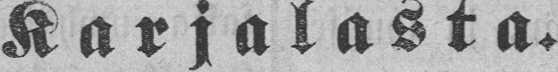Karjalasta.
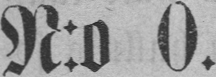N:o 0.
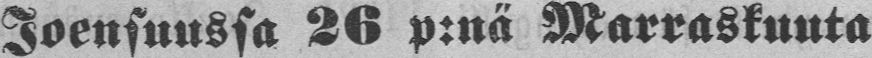Joensuussa 26 p:nä Marraskuuta
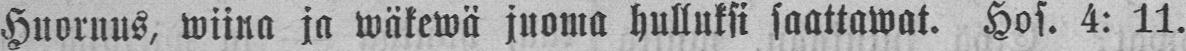Huoruus, wiina ja wäkewä juoma hulluksi saattawat. Hos. 4: 11.
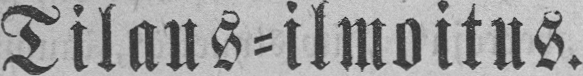Tilaus-ilmoitus.
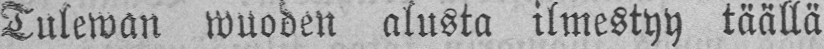Tulewan wuoden alusta ilmestyy täällä
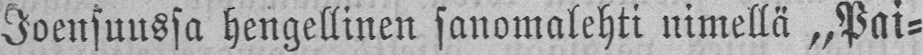Joensuussa hengellinen sanomalehti nimellä „Pai-
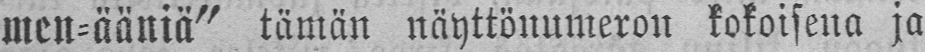men-ääniä" tämän näyttönumeron kokoisena ja
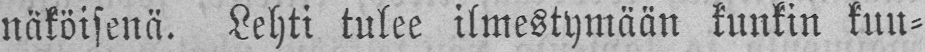näköisenä. Lehti tulee ilmestymään kunkin kuu-
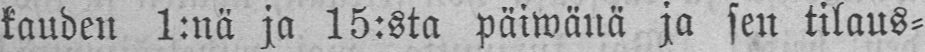kauden 1:nä ja 15:sta päiwänä ja sen tilaus-
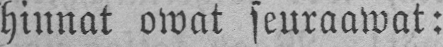hinnat owat seuraawat:
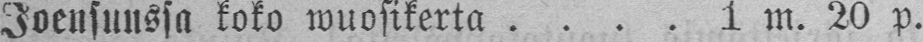Joensuussa koko wuosikerta . . . . 1 m. 20 p.
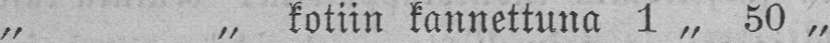„ „ kotiin kannettuna 1 „ 50 „
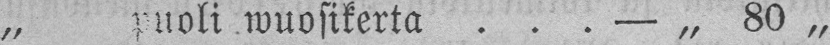„ puoli wuosikerta . . . — „ 80 „
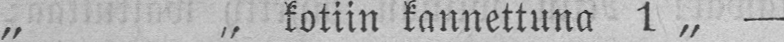„ „ kotiin kannettuna 1 „ —
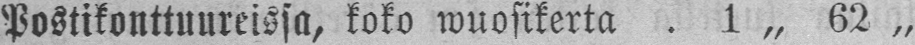Postikonttuureissa, koko wuosikerta . 1 „ 62 „
